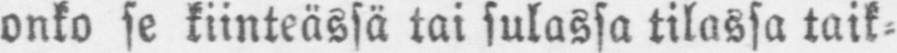onko se kiinteässä tai sulassa tilassa taik-
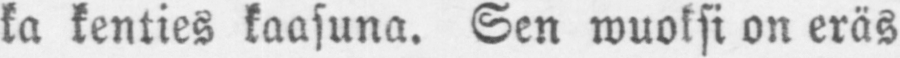ka kenties kaasuna. Sen wuoksi on eräs
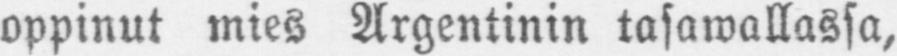oppinut mies Argentinin tasawallassa,
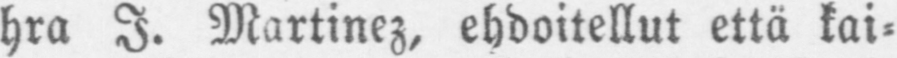hra I. Martinez, ehdoitellut että kai-
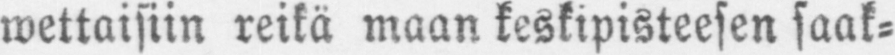wettaisiin reikä maan keskipisteesen saak-
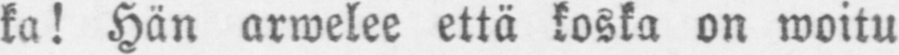ka! Hän arwelee että koska on woitu
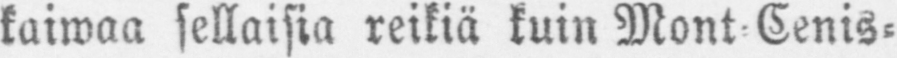kaiwaa sellaisia reikiä kuin Mont-Cenis-
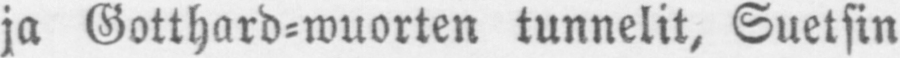ja Gotthard-wuorten tunnelit, Suetsin
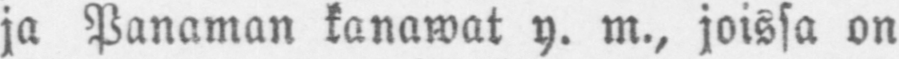ja Panaman kanawat y. m., joissa on
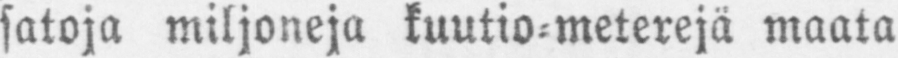satoja miljoneja kuutio-meterejä maata
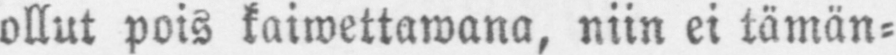ollut pois kaivettawana, niin ei tämän-
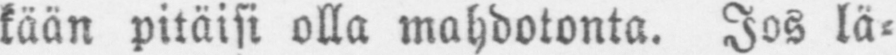kään pitäisi olla mahdotonta. Jos lä-
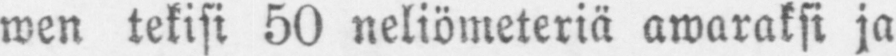wen tekisi 50 neliömeteriä awaraksi ja
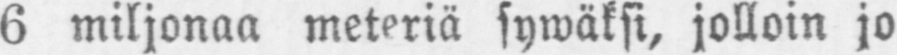6 miljonaa metriä sywäksi, jolloin jo
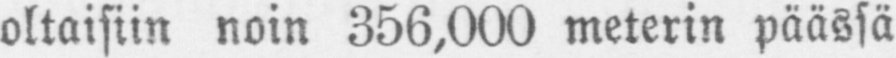oltaisiin noin 356,000 meterin päässä
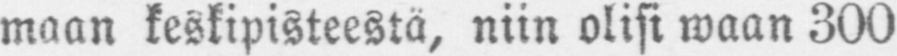maan keskipisteestä, niin olisi waan 300
